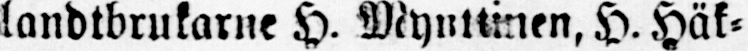landtbrukarne H. Mynttinen, H. Häk-
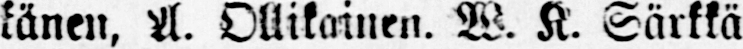känen, A. Ollikainen. W. K. Särkkä
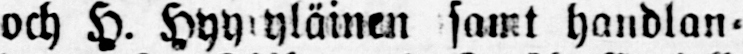och H. Hyyryläinen samt handlan-
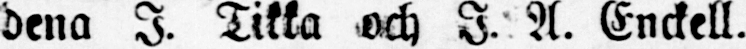dena I. Tikka och I. A. Enckell.
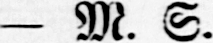- M. S.
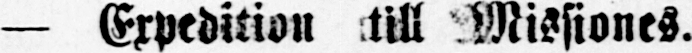— Expedition till Missiones.
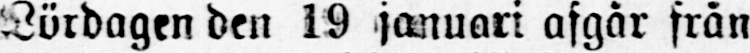Lördagen den 19 januari afgår från
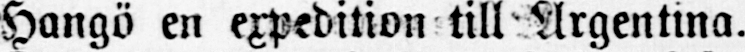Hangö en expedition till Argentina.
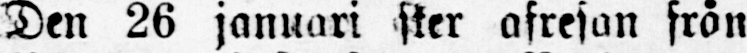Den 26 januari sker afresan från
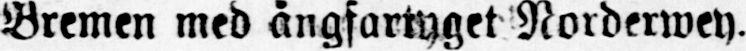Bremen med ångfartyget Norderwen.
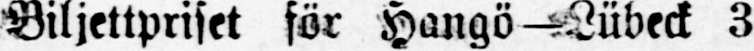Biljettpriset för Hangö-Lübeck 3
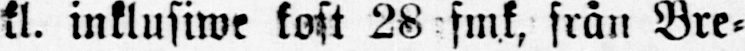kl. inklusiwe kost 28 fmk, från Bre-
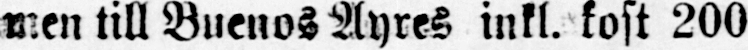men till Buenos Ayres inkl. kost 200
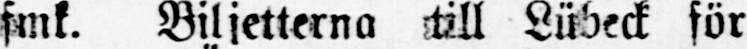fmk. Biljetterna till Lübeck för
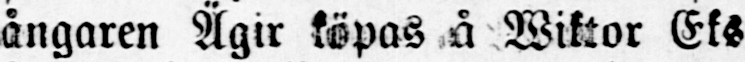ångaren Ägir köpas å Wiktor Eks
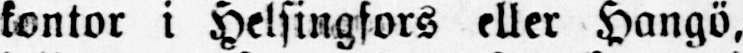kontor i Helsingfors eller Hangö,
